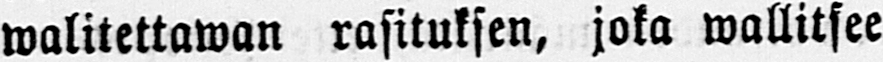walitettawan rasituksen, joka wallitsee
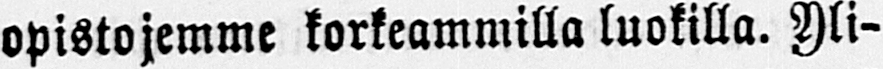opistojemme korkeammilla luokilla. Yli-
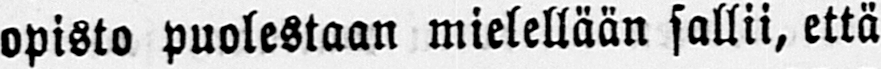opisto puolestaan mielellään sallii, että
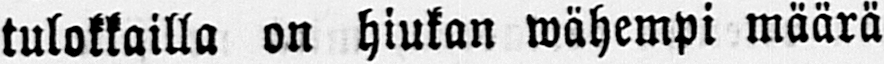tulokkailla on hiukan wähempi määrä
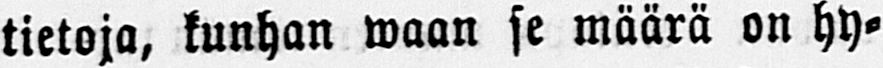tietoja, kunhan waan se määrä on hy-
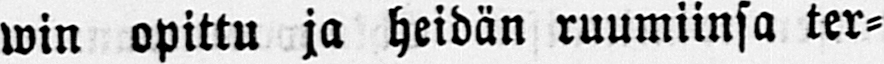win opittu ja heidän ruumiinsa ter-
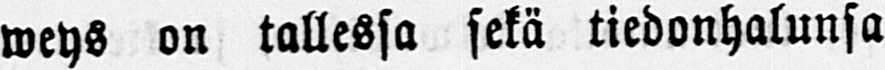veys on tallessa sekä tiedonhalunsa
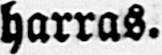harras.
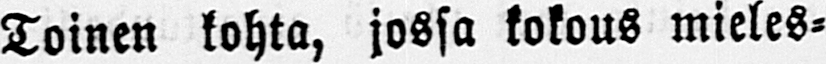Toinen kohta, jossa kokous mieles-
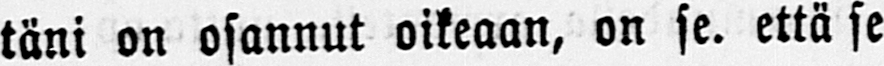täni on osannut oikeaan, on se. että se
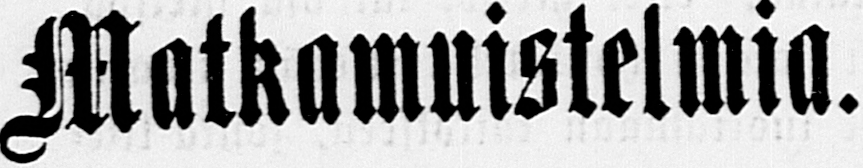Matkamuistelmia.
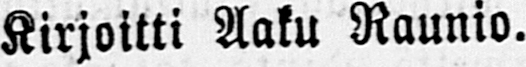Kirjoitti Aaku Raunio.
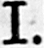I.
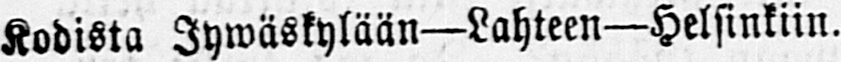Kodista Jywäskylään—Lahteen—Helsinkiin.
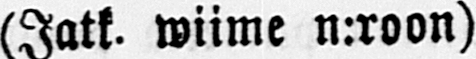(Jatk. wimme n:roon)
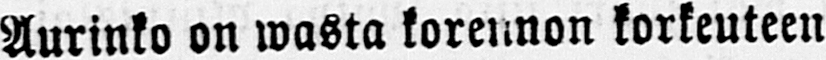Aurinko on wasta korennon korkeuteen
